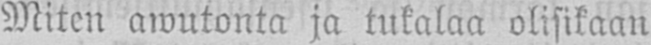Miten awutonta ja tukalaa olisikaan
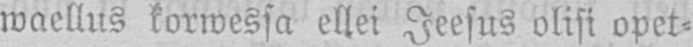waellus korwessa ellei Jeesus olisi opet-
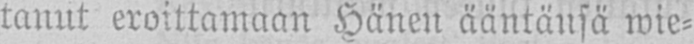tanut eroittamaan Hänen ääntänsä wie-
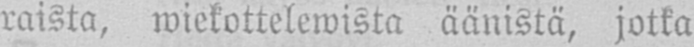raista, wiekottelewista äänistä, jotka
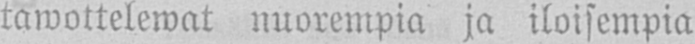tawottelewat nuorempia ja iloisempia
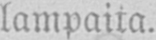lampaita.
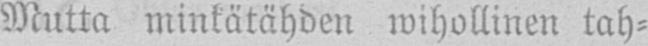Mutta minkätähden wihollinen tah-
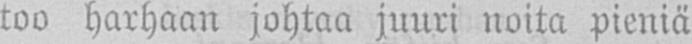too harhaan johtaa juuri noita pieniä
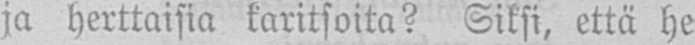ja herttaisia karitsoita? Siksi, että he
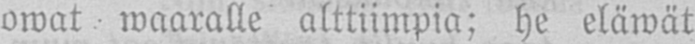owat waaralle alttiimpia; he eläwät
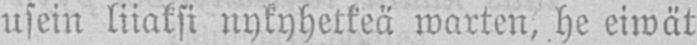usein liiaksi nykyhetkeä warten, he eiwät
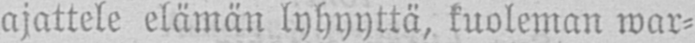ajattele elämän lyhyyttä, kuoleman war-
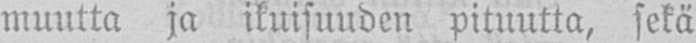muutta ja ikuisuuden pituutta, sekä
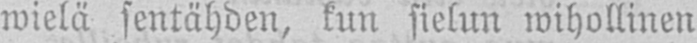wielä sentähden, kun sielun wihollinen
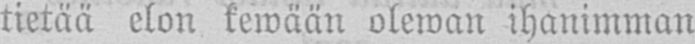tietää elon kewään olewan ihanimman
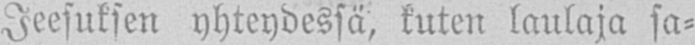Jeesuksen yhteydessä, kuten laulaja sa-
